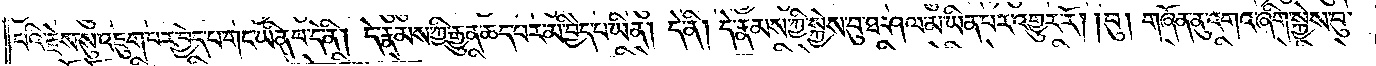པའི་རྗེས་སུ་འཇུག་པར་བྱེད་པ་གང་ཡིན་པ་དེ་ནི། དེ་རྣམས་ཀྱི་རྒྱུན་ཆད་པར་མི་བྱེད་པ་ཡིན། དེ་ནི། དེ་རྣམས་ཀྱི་སྐྱེས་བུ་ཐ་ཤལ་མ་ཡིན་པར་འགྱུར་རོ། །བུ། གཞོན་ནུ་འགའ་ཞིག་སྐྱེས་བུ་
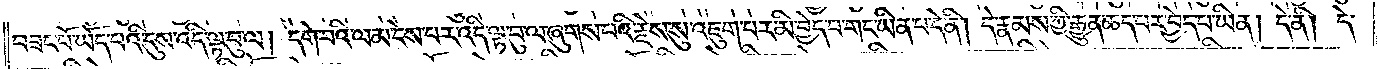བཟང་པོ་ཡོད་པའི་དུས་འདི་ལྟ་བུ་ལ། དགེ་བའི་ལམ་ངེས་པར་འདི་ལྟ་བུ་ལ་ཞུགས་པའི་རྗེས་སུ་འཇུག་པར་མི་བྱེད་པ་གང་ཡིན་པ་དེ་ནི། དེ་རྣམས་ཀྱི་རྒྱུན་ཆད་པར་བྱེད་པ་ཡིན། །དེ་ནི། དེ་
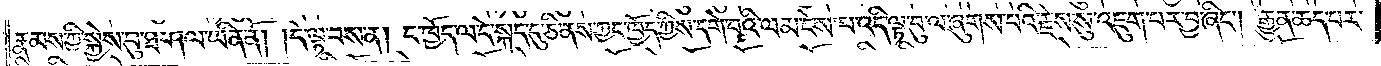རྣམས་ཀྱི་སྐྱེས་བུ་ཐ་ཤལ་ཡིན་ནོ། །དེ་ལྟ་བས་ན། ང་ཁྱོད་ལ་དེ་སྐད་དུ་ཅི་ནས་ཀྱང་ཁྱོད་ཀྱིས་དགེ་བའི་ལམ་ངེས་པ་འདི་ལྟ་བུ་ལ་ཞུགས་པའི་རྗེས་སུ་འཇུག་པར་བྱ་ཞིང༌། རྒྱུན་ཆད་པར་
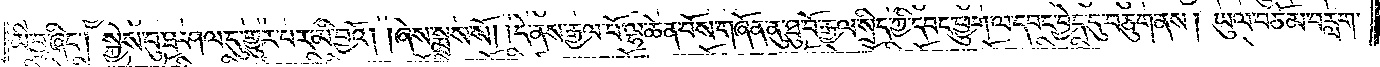མི་བྱ་ཞིང༌། སྐྱེས་བུ་ཐ་ཤལ་དུ་གྱུར་པར་མི་བྱའོ། །ཞེས་སྨྲས་སོ། །དེ་ནས་རྒྱལ་པོ་ལྷ་ཆེན་པོས་གཞོན་ནུ་ཐུ་བོ་རྒྱལ་སྲིད་ཀྱི་དབང་ཕྱུག་ལ་དབང་བྱེད་དུ་བཅུག་ནས། ཡུལ་བཅོམ་བརླག་
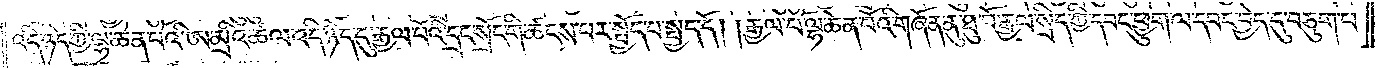འདི་ཉིད་ཀྱི་ལྷ་ཆེན་པོའི་ཨ་མྲའི་ཚལ་འདི་ཉིད་དུ་རྒྱལ་པོའི་དྲང་སྲོང་གི་ཚངས་པར་སྤྱོད་པ་སྤྱད་དོ། །རྒྱལ་པོ་ལྷ་ཆེན་པོའི་གཞོན་ནུ་ཐུ་བོ་རྒྱལ་སྲིད་ཀྱི་དབང་ཕྱུག་ལ་དབང་བྱེད་དུ་བཅུག་པ་
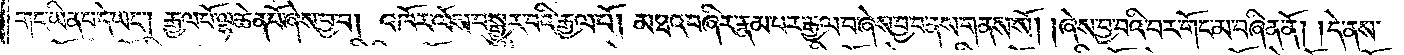གང་ཡིན་པ་དེ་ཡང༌། རྒྱལ་པོ་ལྷ་ཆེན་པོ་ཞེས་བྱ་བ། འཁོར་ལོས་བསྒྱུར་བའི་རྒྱལ་པོ། མཐའ་བཞིར་རྣམ་པར་རྒྱལ་བ་ཞེས་བྱ་བ་ནས་གནས་སོ། །ཞེས་བྱ་བའི་བར་གོང་མ་བཞིན་ནོ། །དེ་ནས་
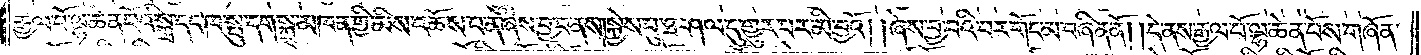རྒྱལ་པོ་ལྷ་ཆེན་པོའི་སྐྲ་དང་ཁ་སྤུ་དག་སྐྲ་མཁན་གྱི་མིས་འཆོས་པ་ན་ཞེས་བྱ་བ་ནས། སྐྱེས་བུ་ཐ་ཤལ་དུ་གྱུར་པར་མི་བྱའོ། །ཞེས་བྱ་བའི་བར་གོང་མ་བཞིན་ནོ། །དེ་ནས་རྒྱལ་པོ་ལྷ་ཆེན་པོས་གཞོན་
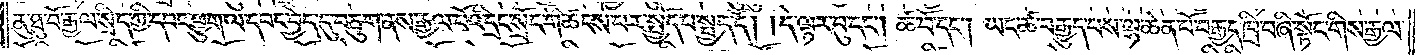ནུ་ཐུ་བོ་རྒྱལ་སྲིད་ཀྱི་དབང་ཕྱུག་ལ་དབང་བྱེད་དུ་བཅུག་ནས་རྒྱལ་པོའི་དྲང་སྲོང་གི་ཚངས་པར་སྤྱོད་པ་སྤྱད་དོ། །དེ་ལྟར་བུ་དང༌། ཚ་བོ་དང༌། ཡང་ཚ་བརྒྱུད་པས་ལྷ་ཆེན་པོ་བརྒྱད་ཁྲི་བཞི་སྟོང་གིས་རྒྱལ་
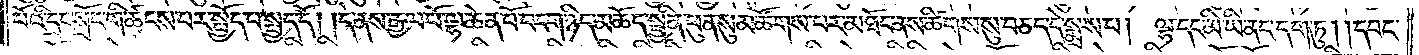པོའི་དྲང་སྲོང་གི་ཚངས་པར་སྤྱོད་པ་སྤྱད་དོ། །དེ་ནས་རྒྱལ་པོ་ལྷ་ཆེན་པོ་བདག་ཉིད་མཆོད་སྦྱིན་ཕུན་སུམ་ཚོགས་པར་མཐོང་ནས་ཚིགས་སུ་བཅད་དེ་སྨྲས་པ། ལྷ་དང་མི་ཡི་ནང་དག་ཏུ། །དབང་
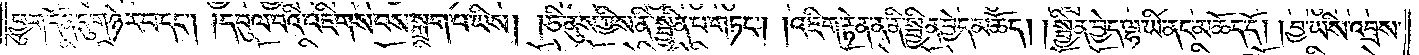ཕྱུག་དོན་དུ་གཉེར་བ་དང༌། །དབུལ་བའི་འཇིགས་པས་སྐྲག་པ་ཡིས། །ཅི་ནུས་ཀྱིས་ནི་སྦྱིན་པ་གཏང༌། །འཇིག་རྟེན་ན་ནི་སྦྱིན་བྱེད་མཆོད། །སྦྱིན་བྱེད་ལྷ་ཡི་ནང་མཆོད་དོ། །བྱ་ཡིས་འབྲས་
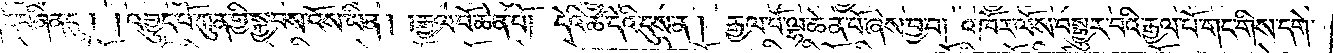དེ་བཞིན་དུ། །འབྱུང་པོ་ཀུན་གྱི་སྐྱབས་འོས་ཡིན། །རྒྱལ་པོ་ཆེན་པོ། དེའི་ཚེ་དེའི་དུས་ན། རྒྱལ་པོ་ལྷ་ཆེན་པོ་ཞེས་བྱ་བ། འཁོར་ལོས་བསྒྱུར་བའི་རྒྱལ་པོ་གང་གིས་དགེ་
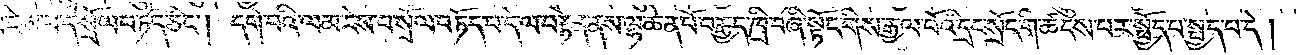བའི་ལམ་ངེས་པ་དེ་སྲོལ་བཏོད་ཅིང༌། དགེ་བའི་ལམ་ངེས་པ་སྲོལ་བཏོད་པ་དེ་ལ་བརྟེན་ནས་ལྷ་ཆེན་པོ་བརྒྱད་ཁྲི་བཞི་སྟོང་གིས་རྒྱལ་པོའི་དྲང་སྲོང་གི་ཚངས་པར་སྤྱོད་པ་སྤྱད་པ་དེ།
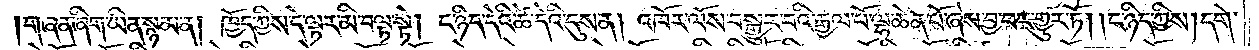གཞན་ཞིག་ཡིན་སྙམ་ན། ཁྱོད་ཀྱིས་དེ་ལྟར་མི་བལྟ་སྟེ། ང་ཉིད་དེའི་ཚེ་དེའི་དུས་ན། འཁོར་ལོས་བསྒྱུར་བའི་རྒྱལ་པོ་ལྷ་ཆེན་པོ་ཞེས་བྱ་བར་གྱུར་ཏོ། །ང་ཉིད་ཀྱིས། དགེ་
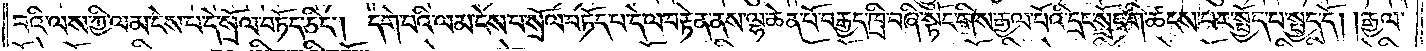བའི་ལས་ཀྱི་ལམ་ངེས་པ་དེ་སྲོལ་བཏོད་ཅིང༌། དགེ་བའི་ལམ་ངེས་པ་སྲོལ་བཏོད་པ་དེ་ལ་བརྟེན་ནས་ལྷ་ཆེན་པོ་བརྒྱད་ཁྲི་བཞི་སྟོང་གིས་རྒྱལ་པོའི་དྲང་སྲོང་གི་ཚངས་པར་སྤྱོད་པ་སྤྱད་དོ། །རྒྱལ་
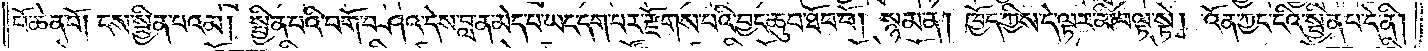པོ་ཆེན་པོ། ངས་སྦྱིན་པའམ། སྦྱིན་པའི་བགོ་བཤའ་དེས་བླ་ན་མེད་པ་ཡང་དག་པར་རྫོགས་པའི་བྱང་ཆུབ་ཐོབ་བོ། སྙམ་ན། ཁྱོད་ཀྱིས་དེ་ལྟར་མི་བལྟ་སྟེ། འོན་ཀྱང་ངའི་སྦྱིན་པ་དེ་ནི།
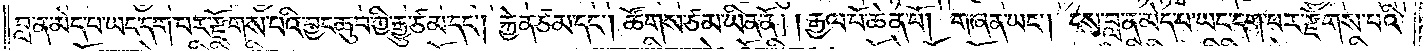བླ་ན་མེད་པ་ཡང་དག་པར་རྫོགས་པའི་བྱང་ཆུབ་ཀྱི་རྒྱུ་ཙམ་དང༌། རྐྱེན་ཙམ་དང༌། ཚོགས་ཙམ་ཡིན་ནོ།    །རྒྱལ་པོ་ཆེན་པོ། གཞན་ཡང༌། ངས་བླ་ན་མེད་པ་ཡང་དག་པར་རྫོགས་པའི་
